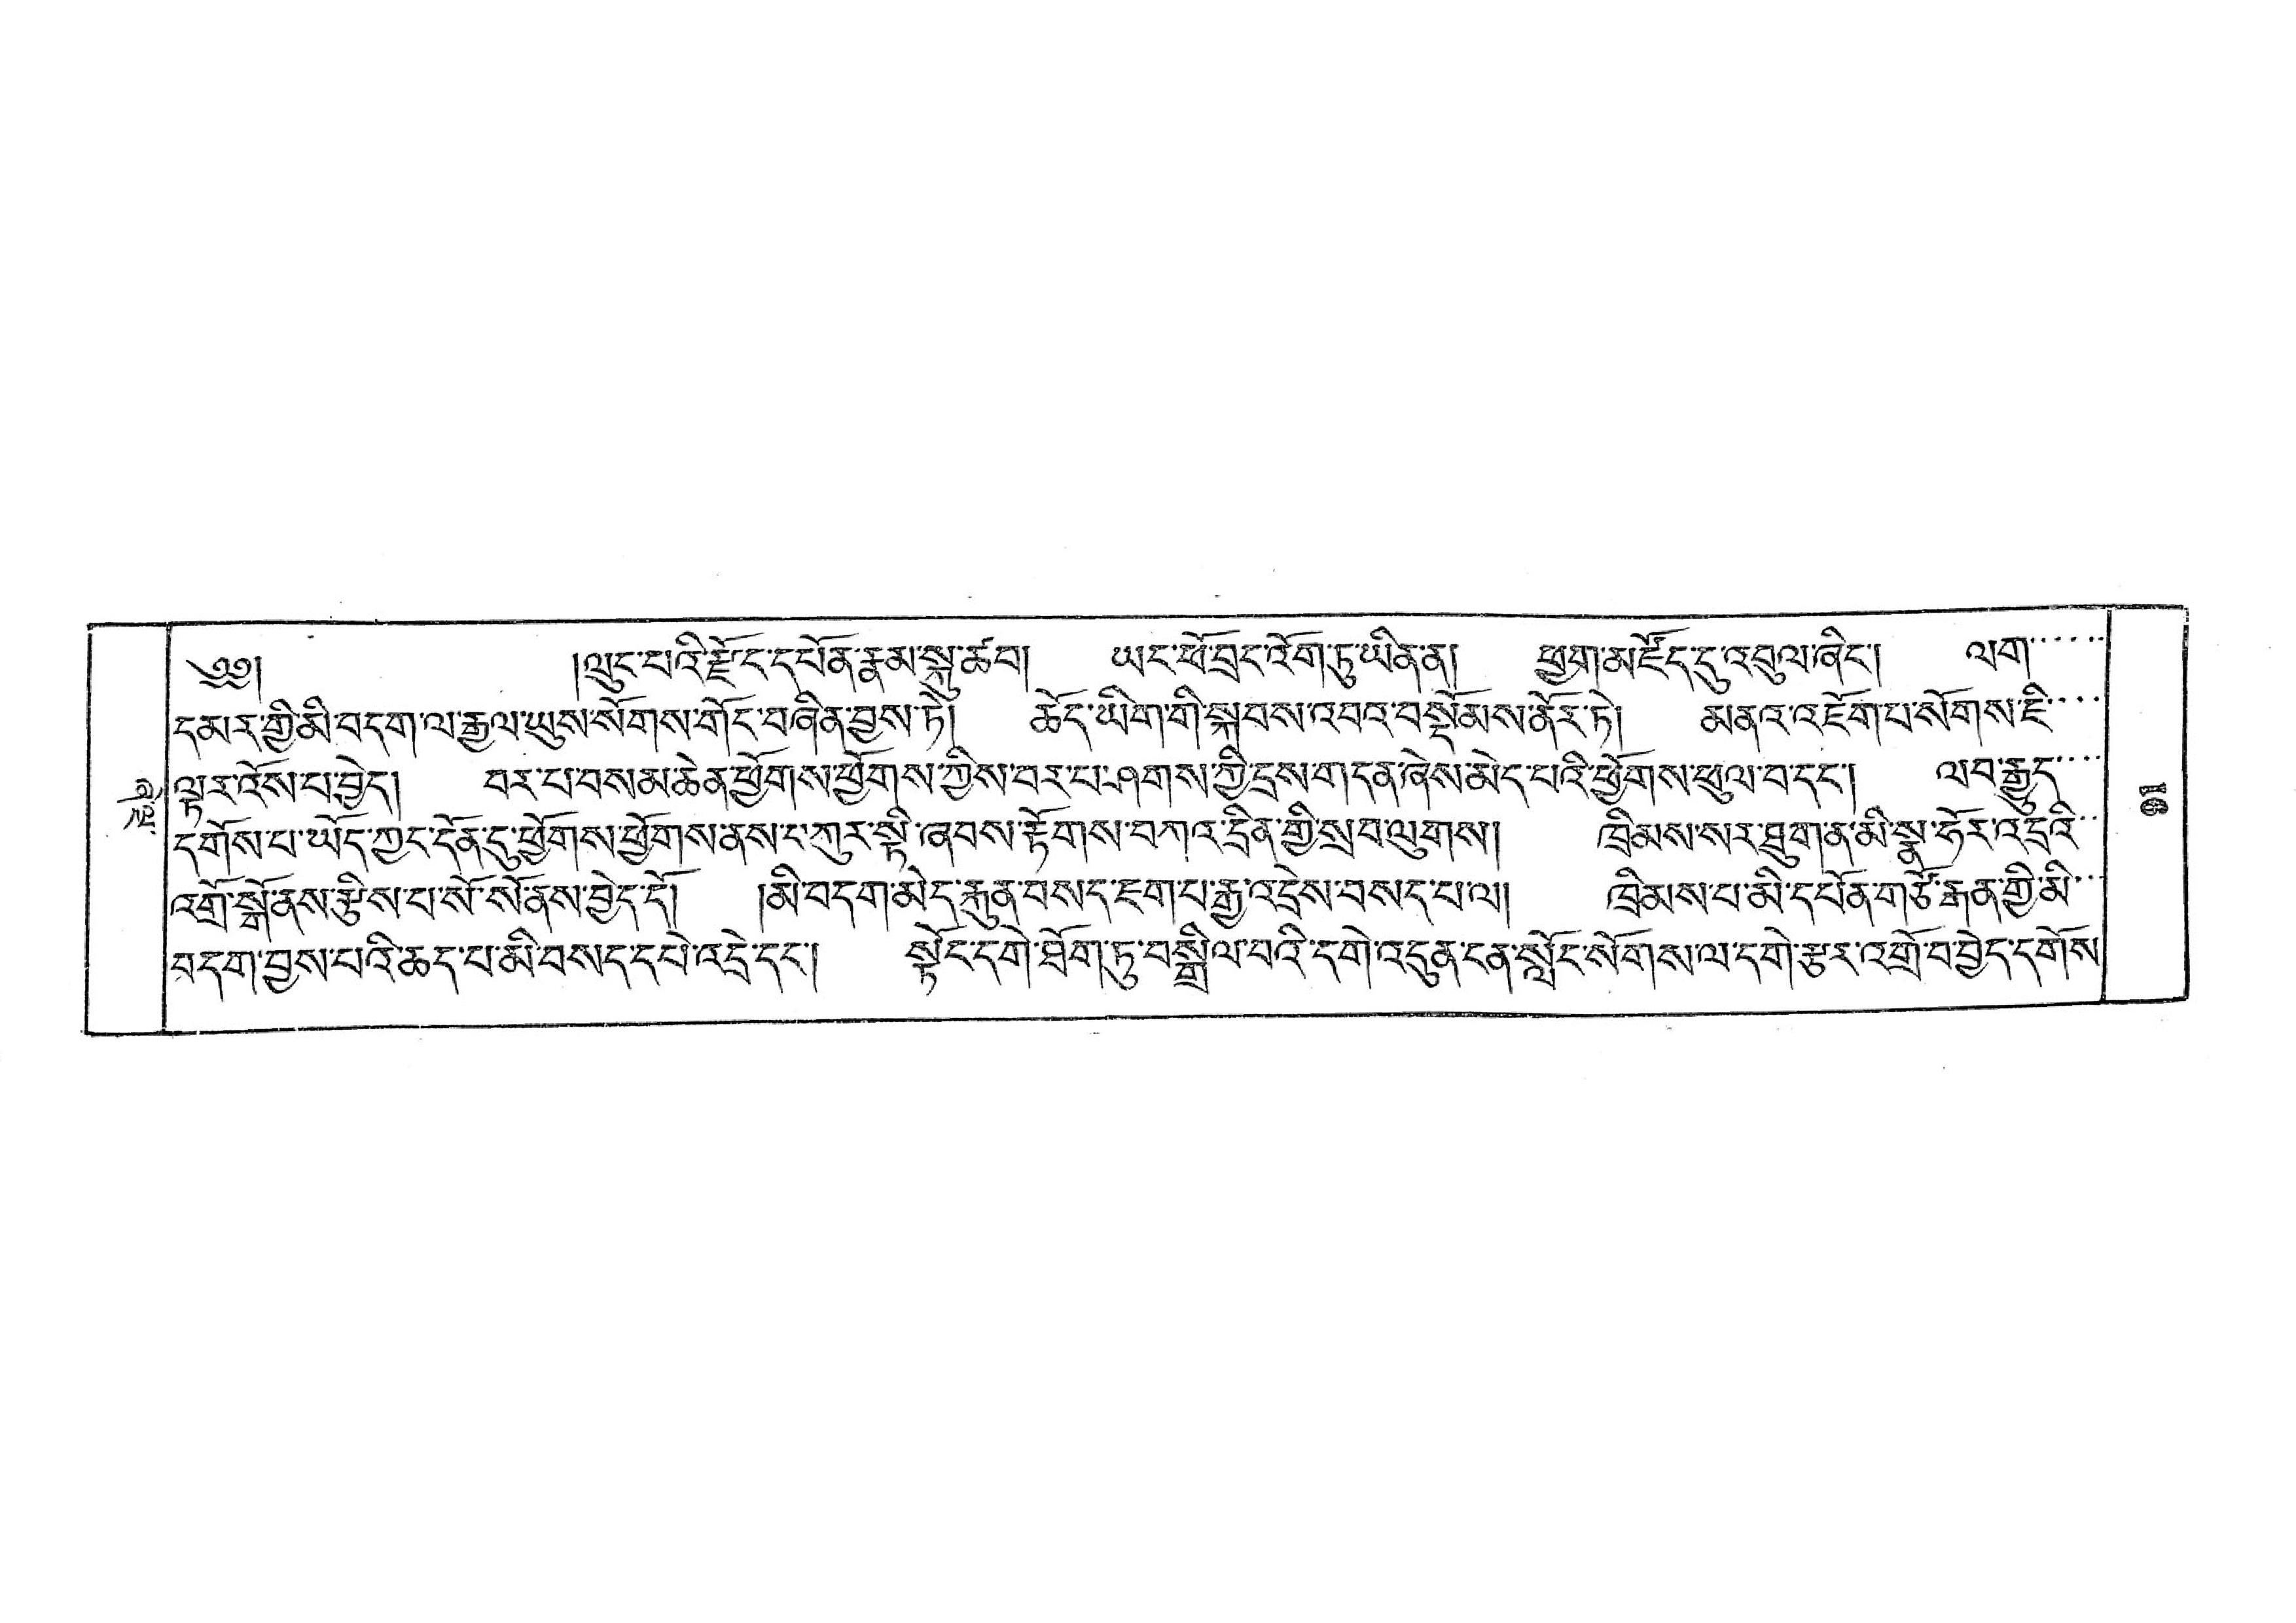ཞེ་ལྔ་
༄༅།  །ལུང་པའི་རྫོང་དཔོན་རྣམ་སྐུ་ཚབ། ཡང་ཕོ་བྲང་འོག་ཏུ་ཡིན་ན། ཕྱག་མཛོད་དུ་འབུལ་ཞིང་། ལག་་་་་་
དམརགྱི་མི་བདག་ལ་རྒྱལ་ཡུས་སོགས་གོང་བཞིན་བྱས་ཏེ། ཆོད་ཡིག་གི་སྐབས་འབའ་བསྡོམས་ནོར་ཏེ། མནའ་འཇོག་པ་སོགས་ཇི་་་་
ལྟར་འོས་པ་བྱེད། བར་པ་བསམ་ཆེན་ཕྱོགས་ཕྱོགས་ཀྱིས་བར་པ་ཤགས་ཀྱི་དྲས་གདན་ཞེས་མེད་པའི་ཕྱོགས་ཕུལ་བ་དང་། ལབ་རྒྱུད་་་་
དགོས་པ་ཡོད་ཀྱང་དོན་དུ་ཕྱོགས་ཕྱོགས་ནས་ང་ཀུར་སྟི་ཞབས་རྟོགས་བཀའ་དྲིན་གྱི་སྲབ་ལུགས། ཁྲིམས་སར་ཐུག་ན་མི་སྣ་ཧོར་འདྲའི་་
འགྲོ་སྒོ་ནས་རྩིས་པ་སོ་སོ་ནས་བྱེད་དོ། །མི་བདག་མེད་རྐུན་བསད་ཇག་པ་རྒྱ་འདྲེས་བསད་པ་ལ། ཁྲིམས་པ་མི་དཔོན་གཙོ་རྒན་གྱི་མི་་་
བདག་བྱས་པའི་ཆད་པ་མི་བསད་དཔེ་འདྲེ་དང་། སྟོང་དགེ་ཐོག་ཏུ་བསྒྲིལ་བའི་དགེ་འདུན་ངན་སློང་སོགས་ལ་དགེ་རྩར་འགྲོ་བ་བྱེད་དགོས་
